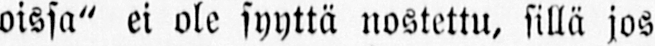oissa" ei ole syyttä nostettu, sillä jos
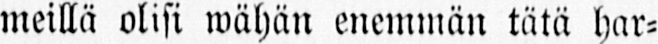meillä olisi wähän enemmän tätä har-
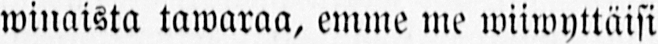winaista tawaraa, emme me wiiwyttäisi
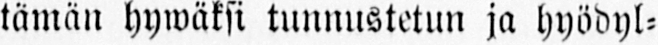tämän hywäksi tunnustetun ja hyödyl-
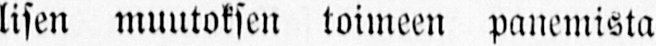lisen muutoksen toimeen panemista
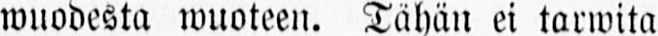wuodesta wuoteen. Tähän ei tarwita
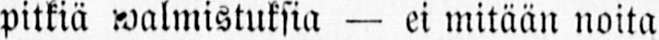pitkiä walmistuksia — ei mitään noita
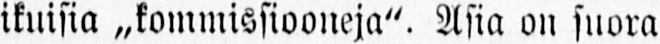ikuisia „kommissiooneja". Asia on suora
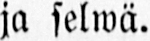ja selwä.
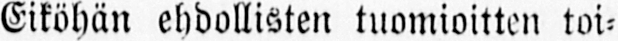Eiköhän ehdollisten tuomioitten toi-
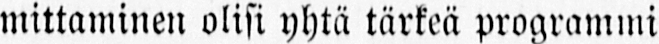mittaminen ulisi yhtä tärkeä programmi
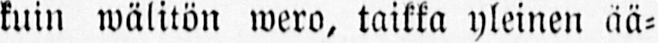kuin wälitön wero, taikka yleinen ää-
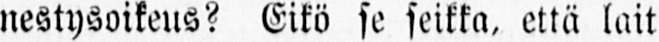nestysoikeus? Eikö se seikka, että lait
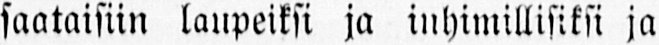saataisiin laupeiksi ja inhimillisiksi ja
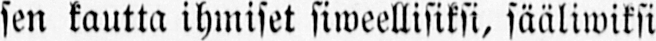sen kautta ihmiset siweellisiksi, sääliwiksi
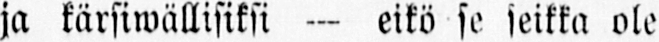ja kärsiwällisiksi — eikö se seikka ole
